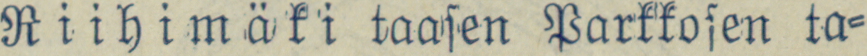Riihimäki taasen Parkkosen ta-
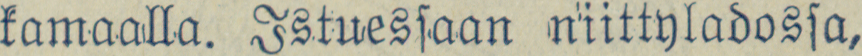kamaalla. Istuessaan niittyladossa,
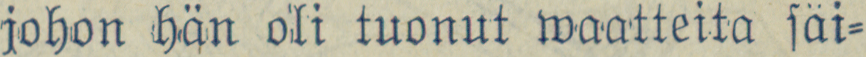johon hän oli tuonut waatteita säi-
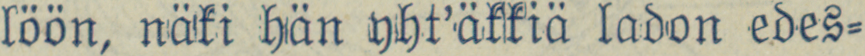löön, näki hän yht'äkkiä ladon edes-
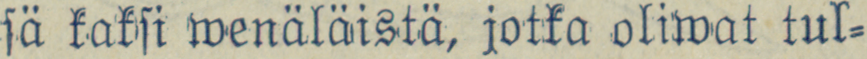sä kaksi wenäläistä, jotka oliwat tul-
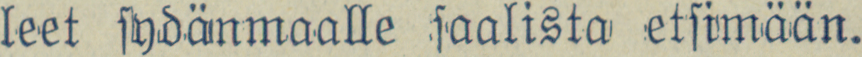leet sydänmaalle saalista etsimään.
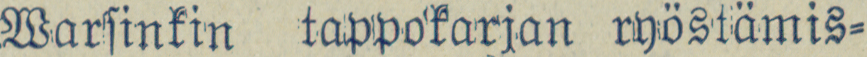Warsinkin tappokarjan ryöstämis-
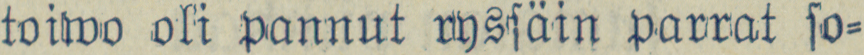toiwo oli pannut ryssäin parrat so-
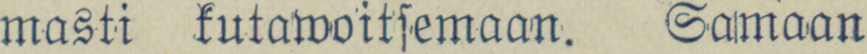masti kutawoitsemaan. Samaan
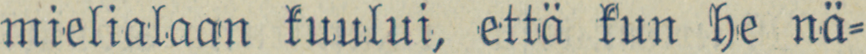mielialaan kuului, että kun he nä-
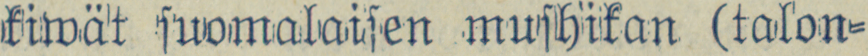kiwät suomalaisen mushikan (talon-
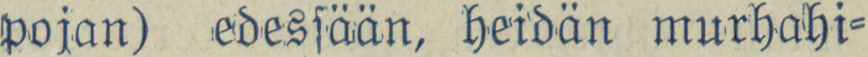pojan) edessään, heidän murhahi-
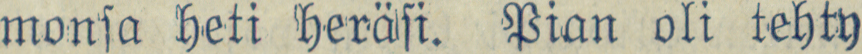monsa heti heräsi. Pian oli tehty
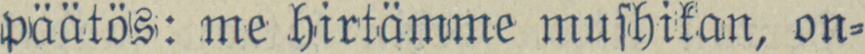päätös: me hirtämme mushikan, on-
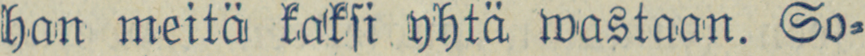han meitä kaksi yhtä wastaan. So-
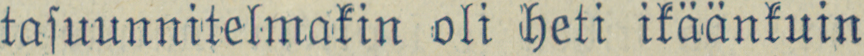tasuunnitelmakin oli heti ikäänkuin
